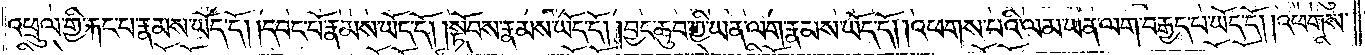འཕྲུལ་གྱི་རྐང་པ་རྣམས་ཡོད་དོ། །དབང་པོ་རྣམས་ཡོད་དོ། །སྟོབས་རྣམས་ཡོད་དོ། །བྱང་ཆུབ་ཀྱི་ཡན་ལག་རྣམས་ཡོད་དོ། །འཕགས་པའི་ལམ་ཡན་ལག་བརྒྱད་པ་ཡོད་དོ། །འཕགས་
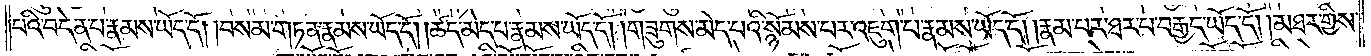པའི་བདེན་པ་རྣམས་ཡོད་དོ། །བསམ་གཏན་རྣམས་ཡོད་དོ། །ཚད་མེད་པ་རྣམས་ཡོད་དོ། །གཟུགས་མེད་པའི་སྙོམས་པར་འཇུག་པ་རྣམས་ཡོད་དོ། །རྣམ་པར་ཐར་པ་བརྒྱད་ཡོད་དོ། །མཐར་གྱིས་
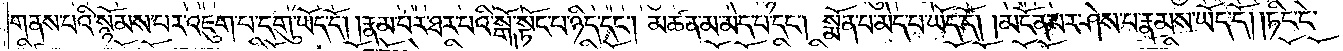གནས་པའི་སྙོམས་པར་འཇུག་པ་དགུ་ཡོད་དོ། །རྣམ་པར་ཐར་པའི་སྒོ་སྟོང་པ་ཉིད་དང༌། མཚན་མ་མེད་པ་དང༌། སྨོན་པ་མེད་པ་ཡོད་དོ། །མངོན་པར་ཤེས་པ་རྣམས་ཡོད་དོ། །ཏིང་ངེ་
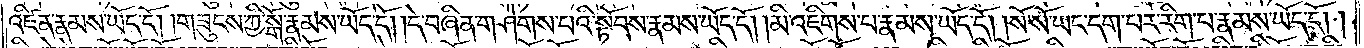འཛིན་རྣམས་ཡོད་དོ། །གཟུངས་ཀྱི་སྒོ་རྣམས་ཡོད་དོ། །དེ་བཞིན་གཤེགས་པའི་སྟོབས་རྣམས་ཡོད་དོ། །མི་འཇིགས་བ་རྣམས་ཡོད་དོ། །སོ་སོ་ཡང་དག་པར་རིག་པ་རྣམས་ཡོད་དོ། །
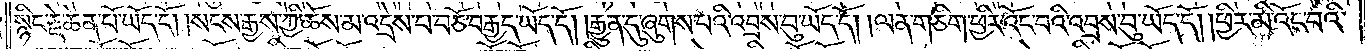སྙིང་རྗེ་ཆེན་པོ་ཡོད་དོ། །སངས་རྒྱས་ཀྱི་ཆོས་མ་འདྲེས་པ་བཅོ་བརྒྱད་ཡོད་དོ། །རྒྱུན་དུ་ཞུགས་པའི་འབྲས་བུ་ཡོད་དོ། །ལན་གཅིག་ཕྱིར་འོང་བའི་འབྲས་བུ་ཡོད་དོ། །ཕྱིར་མི་འོང་བའི་
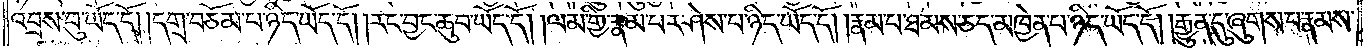འབྲས་བུ་ཡོད་དོ། །དགྲ་བཅོམ་པ་ཉིད་ཡོད་དོ། །རང་བྱང་ཆུབ་ཡོད་དོ། །ལམ་གྱི་རྣམ་པ་ཤེས་པ་ཉིད་ཡོད་དོ། །རྣམ་པ་ཐམས་ཅད་མཁྱེན་པ་ཉིད་ཡོད་དོ། །རྒྱུན་དུ་ཞུགས་པ་རྣམས་
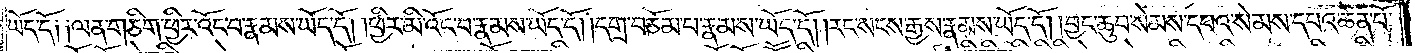ཡོད་དོ། །ལན་གཅིག་ཕྱིར་འོང་བ་རྣམས་ཡོད་དོ། །ཕྱིར་མི་འོང་བ་རྣམས་ཡོད་དོ། །དགྲ་བཅོམ་པ་རྣམས་ཡོད་དོ། །རང་སངས་རྒྱས་རྣམས་ཡོད་དོ། བྱང་ཆུབ་སེམས་དཔའ་སེམས་དཔའ་ཆེན་པོ་
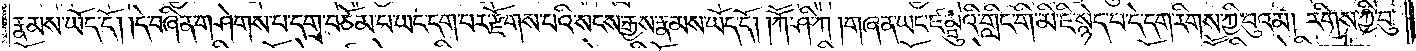རྣམས་ཡོད་དོ། །དེ་བཞིན་གཤེགས་པ་དགྲ་བཅོམ་པ་ཡང་དག་པར་རྫོགས་པའི་སངས་རྒྱས་རྣམས་ཡོད་དོ། །ཀཽ་ཤི་ཀ །གཞན་ཡང་ཛམྦུའི་གླིང་གི་མི་ཇི་སྙེད་པ་དེ་དག་རིགས་ཀྱི་བུའམ། རིགས་ཀྱི་བུ་
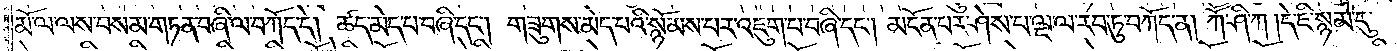མོ་ལ་ལས་བསམ་གཏན་བཞི་ལ་བཀོད་དེ། ཚད་མེད་པ་བཞི་དང༌། གཟུགས་མེད་པའི་སྙོམས་པར་འཇུག་པ་བཞི་དང༌། མངོན་པར་ཤེས་པ་ལྔ་ལ་རབ་ཏུ་བཀོད་ན། ཀཽ་ཤི་ཀ །དེ་ཇི་སྙམ་དུ་
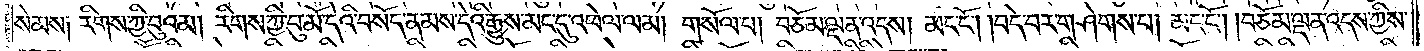སེམས། རིགས་ཀྱི་བུ་འམ། རིགས་ཀྱི་བུ་མོ་དེའི་བསོད་ནམས་དེའི་རྒྱུས་མང་དུ་འཕེལ་ལམ། གསོལ་པ། བཅོམ་ལྡན་འདས། མང་ངོ༌། །བདེ་བར་གཤེགས་པ། མང་ངོ༌། །བཅོམ་ལྡན་འདས་ཀྱིས་
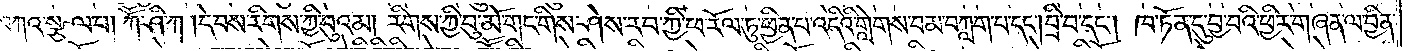བཀའ་སྩལ་པ། ཀཽ་ཤི་ཀ །དེ་བས་རིགས་ཀྱི་བུའམ། རིགས་ཀྱི་བུ་མོ་གང་གིས་ཤེས་རབ་ཀྱི་ཕ་རོལ་ཏུ་ཕྱིན་པ་འདི་གླེགས་བམ་བཀླག་པ་དང༌། བྲི་བ་དང༌། ཁ་ཏོན་དུ་བྱ་བའི་ཕྱིར་གཞན་ལ་བྱིན་
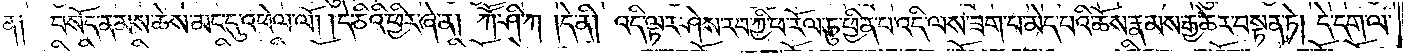ན། བསོད་ནམས་ཆེས་མང་དུ་འཕེལ་ལོ། །དེ་ཅིའི་ཕྱིར་ཞེ་ན། ཀཽ་ཤི་ཀ །དེ་ནི། འདི་ལྟར་ཤེས་རབ་ཀྱི་ཕ་རོལ་ཏུ་ཕྱིན་པ་འདི་ལས་ཟག་པ་མེད་པའི་ཆོས་རྣམས་རྒྱ་ཆེར་བསྟན་ཏེ། དེ་དག་ལ་
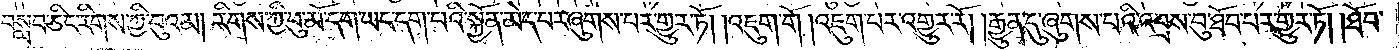བསླབ་ཅིང་རིགས་ཀྱི་བུའམ། རིགས་ཀྱི་བུ་མོ་དག་ཡང་དག་པའི་སྐྱོན་མེད་པར་ཞུགས་པར་གྱུར་ཏོ། །འཇུག་གོ །འཇུག་པར་འགྱུར་རོ། །རྒྱུན་དུ་ཞུགས་པའི་འབྲས་བུ་ཐོབ་པར་གྱུར་ཏོ། །ཐོབ་
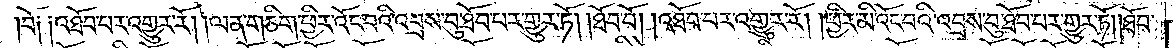བོ། འཐོབ་པར་འགྱུར་རོ། །ལན་གཅིག་ཕྱིར་འོང་བའི་འབྲས་བུ་ཐོབ་པར་གྱུར་ཏོ། །ཐོབ་བོ། འཐོབ་པར་འགྱུར་རོ། །ཕྱིར་མི་འོང་བའི་འབྲས་བུ་ཐོབ་པར་གྱུར་ཏོ། །ཐོབ་
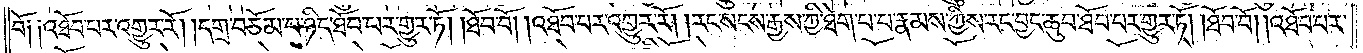བོ༑ ༑འཐོབ་པར་འགྱུར་རོ། །དགྲ་བཅོམ་པ་ཉིད་ཐོབ་པར་གྱུར་ཏོ། །ཐོབ་བོ། འཐོབ་པར་འགྱུར་རོ། །རང་སངས་རྒྱས་ཀྱི་ཐེག་པ་པ་རྣམས་ཀྱིས་རང་བྱང་ཆུབ་ཐོབ་པར་གྱུར་ཏོ། །ཐོབ་པོ། །འཐོབ་པར་
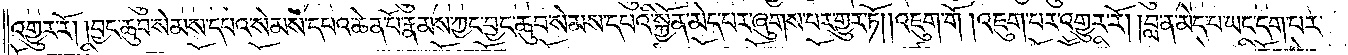འགྱུར་རོ། །བྱང་ཆུབ་སེམས་དཔའ་སེམས་དཔའ་ཆེན་པོ་རྣམས་ཀྱང་བྱང་ཆུབ་སེམས་དཔའི་སྐྱོན་མེད་པར་ཞུགས་པར་གྱུར་ཏོ། །འཇུག་གོ །འཇུག་པར་འགྱུར་རོ། །བླ་ན་མེད་པ་ཡང་དག་པར་
